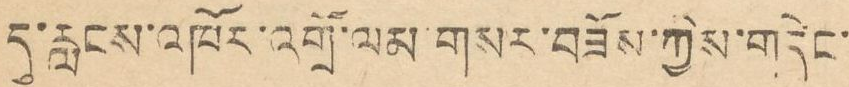དུ་རླངས་འཁོར་འགྲོ་ལམ་གསར་བཟོས་ཀྱིས་གདེང་
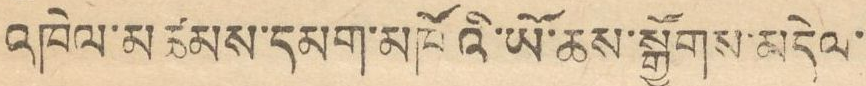འཁེལ་མཚམས་དམག་མཁོའི་ཡོ་ཆས་སྒྱོགས་མདེལ་
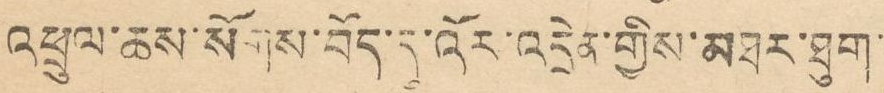འཕྲུལ་ཆས་སོགས་བོད་དུ་འོར་འདྲེན་གྱིས་མཐར་ཐུག་
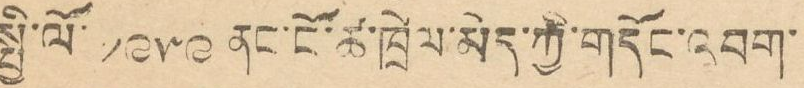སྤྱི་ལོ་ ༡༩༥༩ ནང་ངོ་ཚ་ཁྲེལ་མེད་ཀྱི་གདོང་འབག་
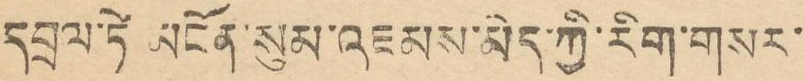དབྲལ་ཏེ་མངོན་སུམ་འཇམས་མེད་ཀྱི་རིག་གསར་
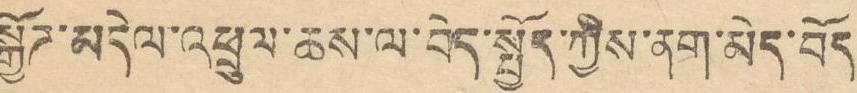སྐྱོཊ་མདེལ་འཕྲུལ་ཆས་ལ་བདེ་སྤྱོད་ཀྱིས་ནག་མེད་བོད
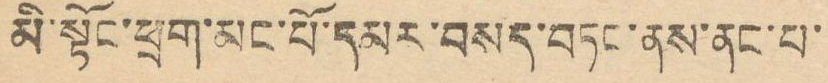མི་སྟོང་ཕྲག་མང་པོ་དམར་བསད་བཏང་ནས་ནང་པ་
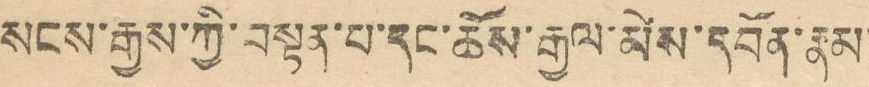སངས་རྒྱས་ཀྱི་བསྟན་པ་དང་ཆོས་རྒྱལ་མེད་དཔོན་རྣམ་
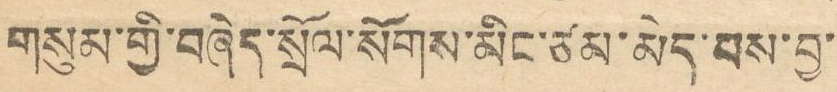གསུམ་གྱི་བཞེད་སྲོལ་སོགས་མིང་ཙམ་མེད་པས་བྱ་
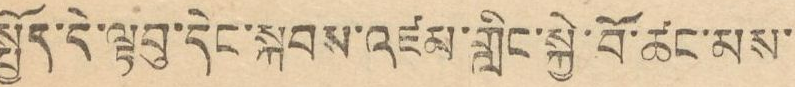སྤྱོད་དེ་ལྟབུ་དེང་སྐབས་འཛམ་གླིང་སྐྱེ་བོ་ཚང་མས་
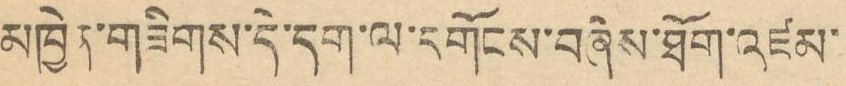མཁྱེན་གཟིགས་དེ་དག་ལ་དགོངས་བཞིས་ཐོག་འཛམ་
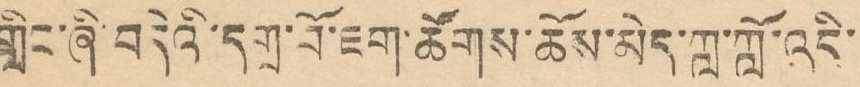གླིང་ཞི་བདེའི་དགྲ་བོ་ཇག་ཚོགས་ཆོས་མེད་ཀླ་ཀློ་འདི་
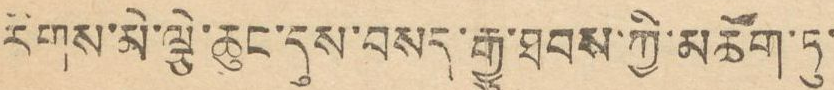རིགས་མེ་ལྕེ་ཆུང་དུས་བསད་རྒྱུ་ཐབས་ཀྱི་མཆོག་ཏུ་
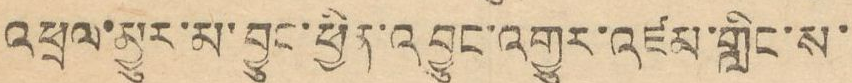འཕྲལ་མྱུར་མ་བྱུང་ཕྱིན་འབྱུང་འགྱུར་འཛམ་གླིང་ས་
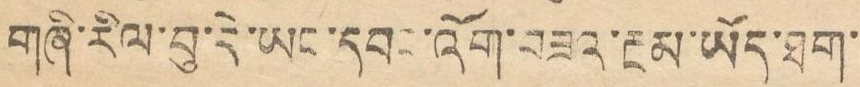གཞི་རིལ་བུ་དེ་ཡང་དབང་འོག་བཟའ་རྔམ་ཡོད་ཐག་
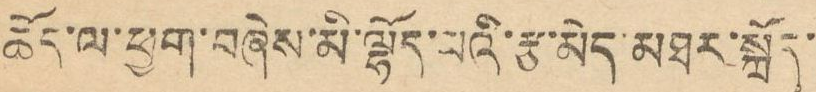ཆོད་ལ་ཕྱག་བཞེས་མི་ལྷོད་པའི་རྩ་མེད་མཐར་སྐྲོད་
